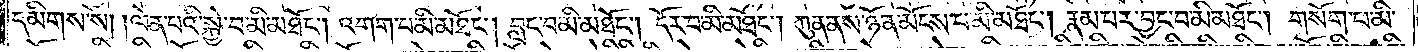དམིགས་སོ། །ལེན་པའི་སྐྱེ་བ་མི་མཐོང༌། འགག་པ་མི་མཐོང༌། བླང་བ་མི་མཐོང༌། དོར་བ་མི་མཐོང༌། ཀུན་ནས་ཉོན་མོངས་པ་མི་མཐོང༌། རྣམ་པར་བྱང་བ་མི་མཐོང༌། གསོག་པ་མི་
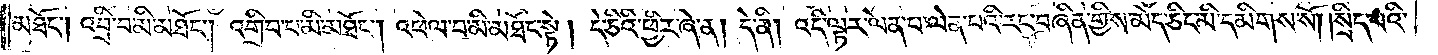མཐོང༌། འབྲི་བ་མི་མཐོང༌། འགྲིབ་པ་མི་མཐོང༌། འཕེལ་བ་མི་མཐོང་སྟེ། དེ་ཅིའི་ཕྱིར་ཞེ་ན། དེ་ནི། འདི་ལྟར་ལེན་པ་ལེན་པའི་རང་བཞིན་གྱིས་མེད་ཅིང་མི་དམིགས་སོ། །སྲིད་པའི་
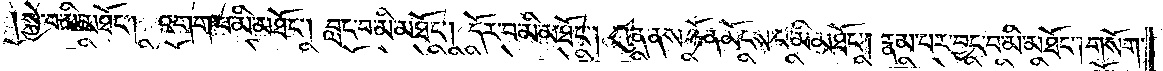སྐྱེ་བ་མི་མཐོང༌། འགག་པ་མི་མཐོང༌། བླང་བ་མི་མཐོང༌། དོར་བ་མི་མཐོང༌། ཀུན་ནས་ཉོན་མོངས་པ་མི་མཐོང༌། རྣམ་པར་བྱང་བ་མི་མཐོང༌། གསོག་
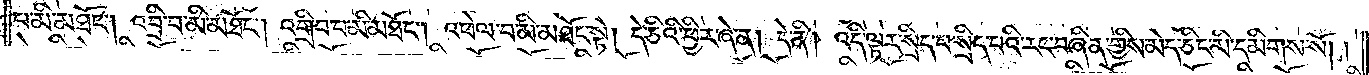པ་མི་མཐོང༌། འབྲི་བ་མི་མཐོང༌། འགྲིབ་པ་མི་མཐོང༌། འཕེལ་བ་མི་མཐོང་སྟེ། དེ་ཅིའི་ཕྱིར་ཞེ་ན། དེ་ནི། འདི་ལྟར་སྲིད་པ་སྲིད་པའི་རང་བཞིན་གྱིས་མེད་ཅིང་མི་དམིགས་སོ། །
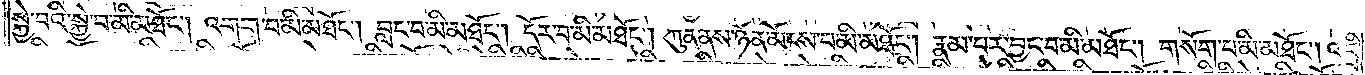སྐྱེ་བའི་སྐྱེ་བ་མི་མཐོང༌། འགག་པ་མི་མཐོང༌། བླང་བ་མི་མཐོང༌། དོར་བ་མི་མཐོང༌། ཀུན་ནས་ཉོན་མོངས་པ་མི་མཐོང༌། རྣམ་པར་བྱང་བ་མི་མཐོང༌། གསོག་པ་མི་མཐོང༌། འབྲི་
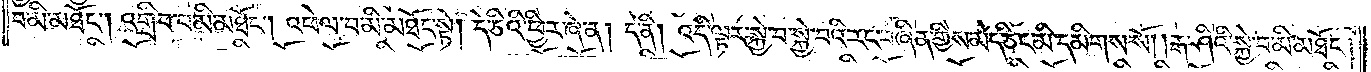བ་མི་མཐོང༌། འགྲིབ་པ་མི་མཐོང༌། འཕེལ་བ་མི་མཐོང་སྟེ། དེ་ཅིའི་ཕྱིར་ཞེ་ན། དེ་ནི། འདི་ལྟར་སྐྱེ་བ་སྐྱེ་བའི་རང་བཞིན་གྱིས་མེད་ཅིང་མི་དམིགས་སོ། །རྒ་ཤིའི་སྐྱེ་བ་མི་མཐོང༌།
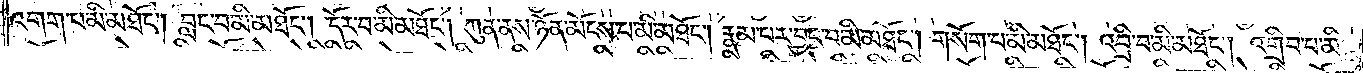འགག་པ་མི་མཐོང༌། བླང་བ་མི་མཐོང༌། དོར་བ་མི་མཐོང༌། ཀུན་ནས་ཉོན་མོངས་པ་མི་མཐོང༌། རྣམ་པར་བྱང་བ་མི་མཐོང༌། གསོག་པ་མི་མཐོང༌། འབྲི་བ་མི་མཐོང༌། འགྲིབ་པ་མི་
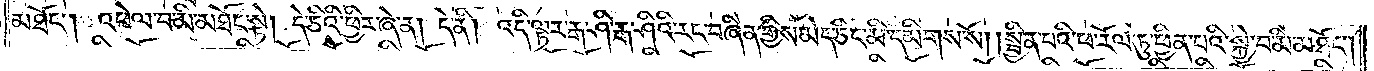མཐོང༌། འཕེལ་བ་མི་མཐོང་སྟེ། དེ་ཅིའི་ཕྱིར་ཞེ་ན། དེ་ནི། འདི་ལྟར་རྒ་ཤི་རྒ་ཤིའི་རང་བཞིན་གྱིས་མེད་ཅིང་མི་དམིགས་སོ། །སྦྱིན་པའི་ཕ་རོལ་ཏུ་ཕྱིན་པའི་སྐྱེ་བ་མི་མཐོང༌།
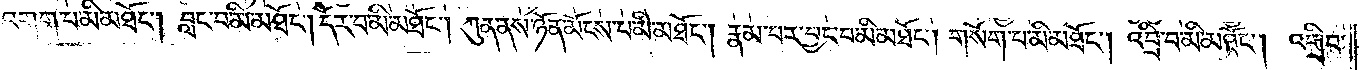འགག་པ་མི་མཐོང༌། བླང་བ་མི་མཐོང༌། དོར་བ་མི་མཐོང༌། ཀུན་ནས་ཉོན་མོངས་པ་མི་མཐོང༌། རྣམ་པར་བྱང་བ་མི་མཐོང༌། གསོག་པ་མི་མཐོང༌། འབྲི་བ་མི་མཐོང༌། འགྲིབ་
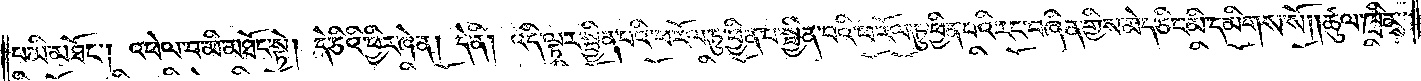པ་མི་མཐོང༌། འཕེལ་བ་མི་མཐོང་སྟེ། དེ་ཅིའི་ཕྱིར་ཞེ་ན། དེ་ནི། འདི་ལྟར་སྦྱིན་པའི་ཕ་རོལ་ཏུ་ཕྱིན་པ་སྦྱིན་པའི་ཕ་རོལ་ཏུ་ཕྱིན་པའི་རང་བཞིན་གྱིས་མེད་ཅིང་མི་དམིགས་སོ། །ཚུལ་ཁྲིམས་
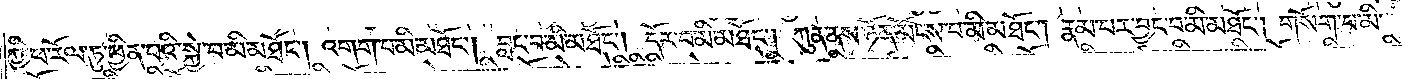ཀྱི་ཕ་རོལ་ཏུ་ཕྱིན་པའི་སྐྱེ་བ་མི་མཐོང༌། འགག་པ་མི་མཐོང༌། བླང་བ་མི་མཐོང༌། དོར་བ་མི་མཐོང༌། ཀུན་ནས་ཉོན་མོངས་པ་མི་མཐོང༌། རྣམ་པར་བྱང་བ་མི་མཐོང༌། གསོག་པ་མི་
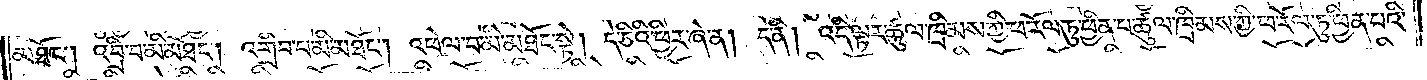མཐོང༌། འབྲི་བ་མི་མཐོང༌། འགྲིབ་པ་མི་མཐོང༌། འཕེལ་བ་མི་མཐོང་སྟེ། དེ་ཅིའི་ཕྱིར་ཞེ་ན། དེ་ནི། འདི་ལྟར་ཚུལ་ཁྲིམས་ཀྱི་ཕ་རོལ་ཏུ་ཕྱིན་པ་ཚུལ་ཁྲིམས་ཀྱི་ཕ་རོལ་ཏུ་ཕྱིན་པའི་
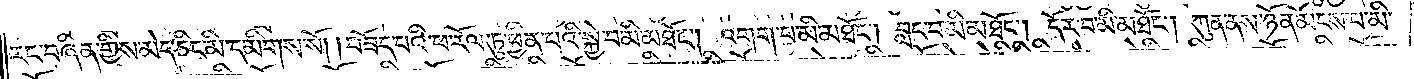རང་བཞིན་གྱིས་མེད་ཅིང་མི་དམིགས་སོ། །བཟོད་པའི་ཕ་རོལ་ཏུ་ཕྱིན་པའི་སྐྱེ་བ་མི་མཐོང༌། འགག་པ་མི་མཐོང༌། བླང་བ་མི་མཐོང༌། དོར་བ་མི་མཐོང༌། ཀུན་ནས་ཉོན་མོངས་པ་མི་
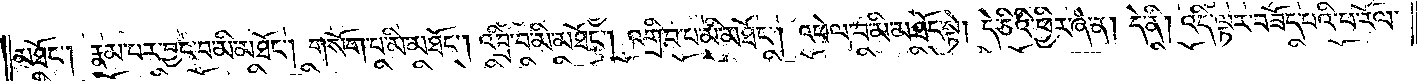མཐོང༌། རྣམ་པར་བྱང་བ་མི་མཐོང༌། གསོག་པ་མི་མཐོང༌། འབྲི་བ་མི་མཐོང༌། འགྲིབ་པ་མི་མཐོང༌། འཕེལ་བ་མི་མཐོང་སྟེ། དེ་ཅིའི་ཕྱིར་ཞེ་ན། དེ་ནི། འདི་ལྟར་བཟོད་པའི་ཕ་རོལ་
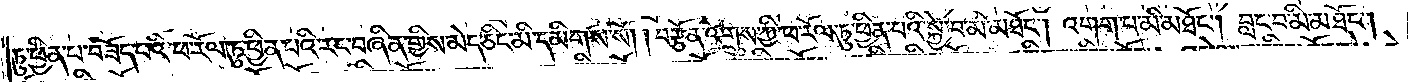ཏུ་ཕྱིན་པ་བཟོད་པའི་ཕ་རོལ་ཏུ་ཕྱིན་པའི་རང་བཞིན་གྱིས་མེད་ཅིང་མི་དམིགས་སོ། །བརྩོན་འགྲུས་ཀྱི་ཕ་རོལ་ཏུ་ཕྱིན་པའི་སྐྱེ་བ་མི་མཐོང༌། འགག་པ་མི་མཐོང༌། བླང་བ་མི་མཐོང༌།
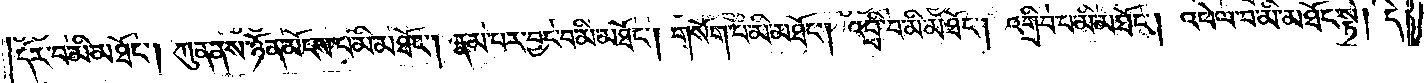དོར་བ་མི་མཐོང༌། ཀུན་ནས་ཉོན་མོངས་པ་མི་མཐོང༌། །རྣམ་པར་བྱང་བ་མི་མཐོང༌། གསོག་པ་མི་མཐོང༌། འབྲི་བ་མི་མཐོང༌། འགྲིབ་པ་མི་མཐོང༌། འཕེལ་བ་མི་མཐོང་སྟེ། དེ་
